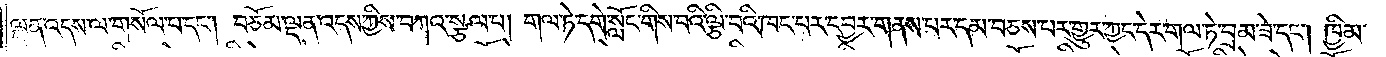ལྡན་འདས་ལ་གསོལ་བ་དང༌། བཅོམ་ལྡན་འདས་ཀྱིས་བཀའ་སྩལ་པ། གལ་ཏེ་དགེ་སློང་གིས་བའི་ལྕི་བའི་ཁང་པར་དབྱར་གནས་པར་དམ་བཅས་པར་གྱུར་ཀྱང་དེར་གལ་ཏེ་བྲམ་ཟེ་དང༌། ཁྱིམ་
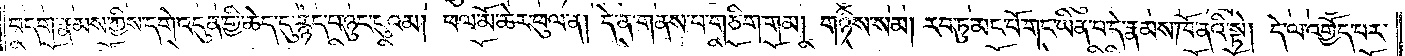བདག་རྣམས་ཀྱིས་དགེ་འདུན་གྱི་ཆེད་དུ་རྙེད་པ་ཉུང་ངུའམ། ཕལ་མོ་ཆེར་ཕུལ་ན། དེ་ན་གནས་པ་གཅིག་གམ། གཉིས་སམ། རབ་ཏུ་མང་པོ་གང་ཡིན་པ་དེ་རྣམས་ཁོ་ནའི་སྟེ། དེ་ལ་འགྱོད་པར་
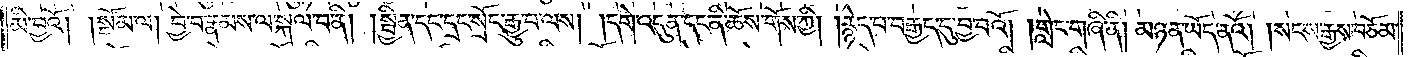མི་བྱའོ།    །སྡོམ་ལ། བྱེ་བ་རྣམས་ལ་སྐལ་བ་ནི། །སྦྱིན་དང་དྲང་སྲོང་རྒྱུ་བ་ལས། །དགེ་འདུན་དང་ནི་ཆོས་གོས་ཀྱི། །རྙེད་པ་བརྒྱད་དུ་བྱ་བའོ། །གླེང་གཞི་ནི། མཉན་ཡོད་ནའོ། །སངས་རྒྱས་བཅོམ་
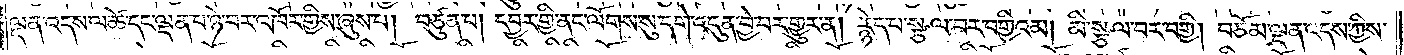ལྡན་འདས་ལ་ཚེ་དང་ལྡན་པ་ཉེ་བར་འཁོར་གྱིས་ཞུས་པ། བཙུན་པ། དབྱར་གྱི་ནང་ལོགས་སུ་དགེ་འདུན་བྱེ་བར་གྱུར་ན། རྙེད་པ་སྩལ་བར་བགྱིའམ། མི་སྩལ་བར་བགྱི། བཅོམ་ལྡན་འདས་ཀྱིས་
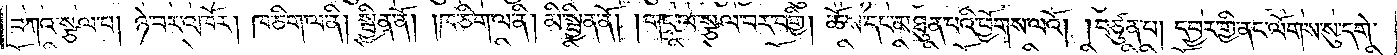བཀའ་སྩལ་པ། ཉེ་བར་འཁོར། ཁ་ཅིག་ལ་ནི། སྦྱིན་ནོ། །ཁ་ཅིག་ལ་ནི། མི་སྦྱིན་ནོ། །གང་ལ་སྩལ་བར་བགྱི། ཆོས་དང་མཐུན་པའི་ཕྱོགས་ལའོ། །བཙུན་པ། དབྱར་གྱི་ནང་ལོགས་སུ་དགེ་
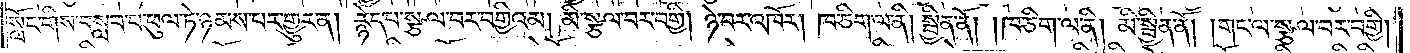སློང་གིས་བསླབ་པ་ཕུལ་ཏེ་ཉམས་པར་གྱུར་ན། རྙེད་པ་སྩལ་བར་བགྱིའམ། མི་སྩལ་བར་བགྱི། ཉེ་བར་འཁོར། ཁ་ཅིག་ལ་ནི། སྦྱིན་ནོ། །ཁ་ཅིག་ལ་ནི། མི་སྦྱིན་ནོ། །གང་ལ་སྩལ་བར་བགྱི།
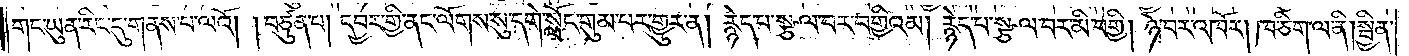གང་ཡུན་རིང་དུ་གནས་པ་ལའོ། །བཙུན་པ། དབྱར་གྱི་ནང་ལོགས་སུ་དགེ་སློང་གུམ་པར་གྱུར་ན། རྙེད་པ་སྩལ་བར་བགྱིའམ། རྙེད་པ་སྩལ་བར་མི་བགྱི། ཉེ་བར་འཁོར། ཁ་ཅིག་ལ་ནི། སྦྱིན་
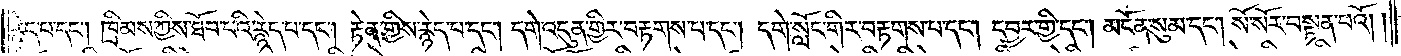རྙེད་པ་དང༌། ཁྲིམས་ཀྱིས་ཐོབ་པའི་རྙེད་པ་དང༌། རྟེན་གྱིས་རྙེད་པ་དང༌། དགེ་འདུན་གྱིར་བརྟགས་པ་དང༌། དགེ་སློང་གིར་བརྟགས་པ་དང༌། དབྱར་གྱི་དང༌། མངོན་སུམ་དང༌། སོ་སོར་བསྟན་པའོ། །
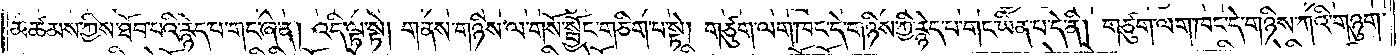མཚམས་ཀྱིས་ཐོབ་པའི་རྙེད་པ་གང་ཞེ་ན། འདི་ལྟ་སྟེ། གནས་གཉིས་ལ་གསོ་སྦྱོང་གཅིག་པ་སྟེ། གཙུག་ལག་ཁང་དེ་གཉིས་ཀྱི་རྙེད་པ་གང་ཡིན་པ་དེ་ནི། གཙུག་ལག་ཁང་དེ་གཉིས་ཀའི་གཉུག་
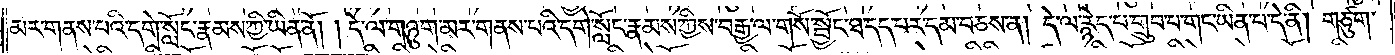མར་གནས་པའི་དགེ་སློང་རྣམས་ཀྱི་ཡིན་ནོ། །དེ་ལ་གཉུག་མར་གནས་པའི་དགེ་སློང་རྣམས་ཀྱིས་བརྒྱ་ལ་གསོ་སྦྱོང་ཐ་དད་པར་དམ་བཅས་ན། དེ་ལ་རྙེད་པ་གྲུབ་པ་གང་ཡིན་པ་དེ་ནི། གཙུག་
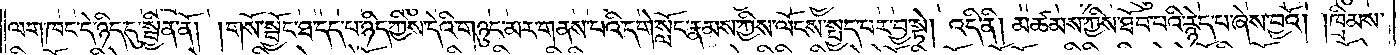ལག་ཁང་དེ་ཉིད་དུ་སྦྱིན་ནོ། །གསོ་སྦྱོང་ཐ་དད་པ་ཉིད་ཀྱིས་དེའི་གཉུང་མར་གནས་པའི་དགེ་སློང་རྣམས་ཀྱི་ལོངས་སྤྱོད་པར་བྱ་སྟེ། འདི་ནི། མཚམས་ཀྱིས་ཐོབ་པའི་རྙེད་པ་ཞེས་བྱའོ། །ཁྲིམས་
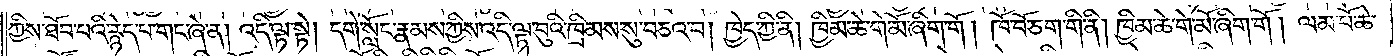ཀྱིས་ཐོབ་པའི་རྙེད་པ་གང་ཞེ་ན། འདི་ལྟ་སྟེ། དགེ་སློང་རྣམས་ཀྱིས་འདི་ལྟ་བུའི་ཁྲིམས་སུ་བཅའ་བ། ཁྱེད་ཀྱི་ནི། ཁྱིམ་ཆེ་གེ་མོ་ཞིག་གོ། ཁོ་བོ་ཅག་གི་ནི། ཁྱིམ་ཆེ་གེ་མོ་ཞིག་གོ །ལམ་པོ་ཆེ་
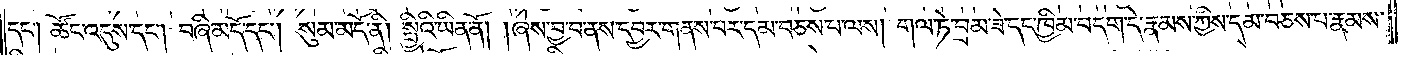དང༌། ཚོང་འདུས་དང༌། བཞི་མདོ་དང༌། སུམ་མདོ་ནི། སྤྱིའི་ཡིན་ནོ། །ཞེས་བྱ་བ་ནས་དབྱར་གནས་པར་དམ་བཅས་པ་ལས། གལ་ཏེ་བྲམ་ཟེ་དང་ཁྱིམ་བདག་དེ་རྣམས་ཀྱིས་དམ་བཅས་པ་རྣམས་
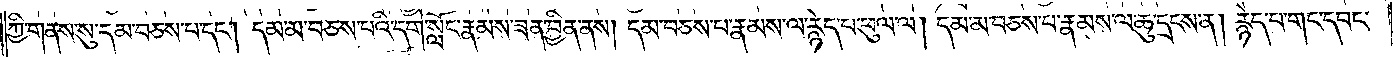ཀྱི་གནས་སུ་དམ་བཅས་པ་དང༌། དམ་མ་བཅས་པའི་དགེ་སློང་རྣམས་ཟན་བྱིན་ནས། དམ་བཅས་པ་རྣམས་ལ་རྙེད་པ་ཕུལ་ལ། དམ་མ་བཅས་པ་རྣམས་ལ་ཆུ་དྲངས་ན། རྙེད་པ་གང་དབང་
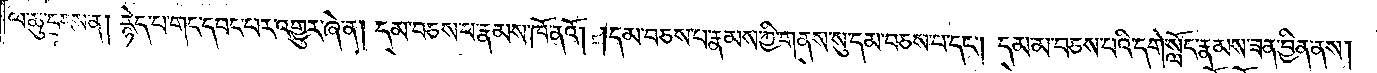ལ་ཆུ་དྲངས་ན། རྙེད་པ་གང་དབང་བར་འགྱུར་ཞེ་ན། དམ་བཅས་པ་རྣམས་ཁོ་ནའོ། །དམ་བཅས་པ་རྣམས་ཀྱི་གནས་སུ་དམ་བཅས་པ་དང༌། དམ་མ་བཅས་པའི་དགེ་སློང་རྣམས་ཟན་བྱིན་ནས།
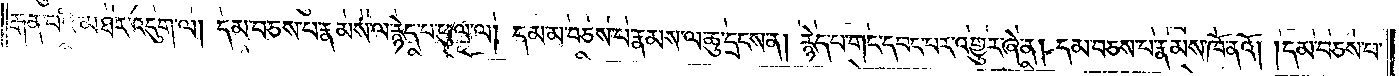རྒན་པའི་མཐར་འདུག་ལ། དམ་བཅས་པ་རྣམས་ལ་རྙེད་པ་ཕུལ་ལ། དམ་མ་བཅས་པ་རྣམས་ལ་ཆུ་དྲངས་ན། རྙེད་པ་གང་དབང་བར་འགྱུར་ཞེ་ན། དམ་བཅས་པ་རྣམས་ལ་ཁོ་ནའོ། །དམ་བཅས་པ་
